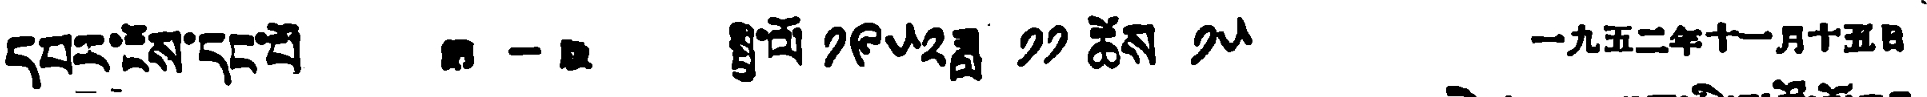དཔར་ངོས་དང་པོ་ 第一版 སྤྱི་ལོ ༡༩༥༢ ཟླ ༡༡ ཚེས ༡༥ 一九五二年十一月十五日
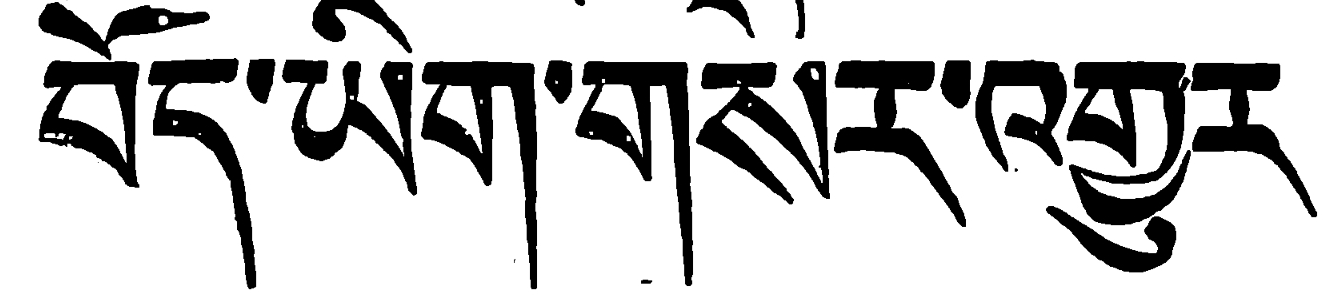བོད་ཡིག་གསར་འགྱུར
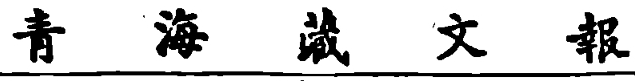靑 海 藏 文 報
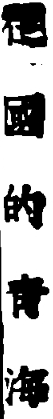祖 國 的 靑 海
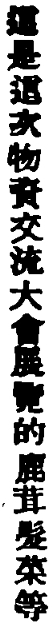這是這次物資交流大會展覽的鹿茸髮菜等
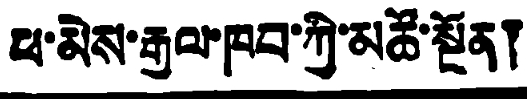ཕ་མེས་རྒྱལ་ཁབ་ཀྱི་མཚོ་སྔོན།
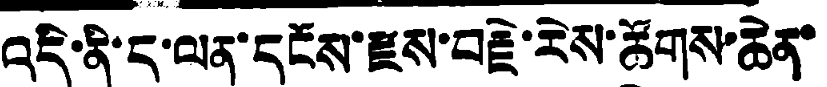འདི་ནི་ད་ལན་དངོས་རྫས་བརྗེ་རེས་ཚོགས་ཆེན་
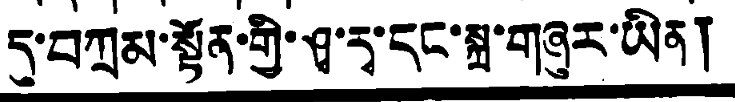དུ་བཀྲམ་སྟོན་གྱི་ཤྭ་རྭ་དང་སྐྲ་གཞུར་ཡིན།
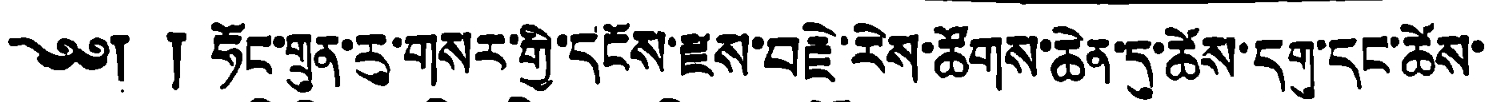༄༅། ། ཧོང་གྲུན་རུ་གསར་གྱི་དངོས་རྫས་བརྗེ་རེས་ཚོགས་ཆེན་དུ་ཚེས་དགུ་དང་ཚེས་
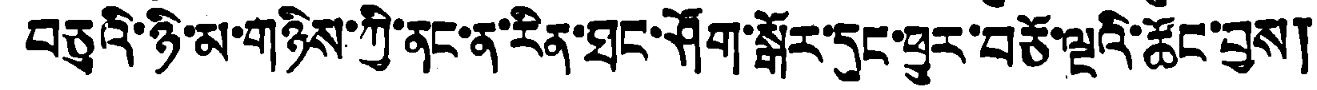བཅུའི་ཉི་མ་གཉིས་ཀྱི་ནང་ན་རིན་ཐང་ཤོག་སྒོར་དུང་ཕྱུར་བཅོ་ལྔའི་ཚོང་བྱས།
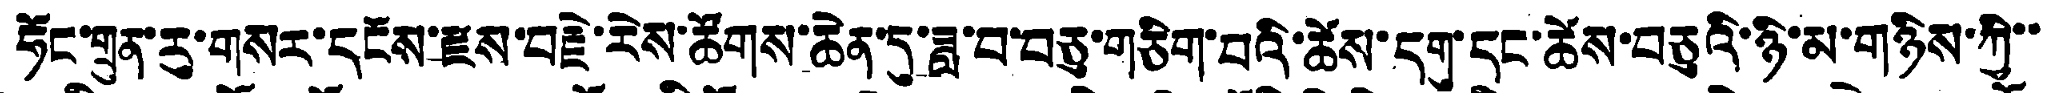ཧོང་གྲུན་རུ་གསར་དངོས་རྫས་བརྗེ་རེས་ཚོགས་ཆེན་དུ་ཟླ་བ་བཅུ་གཅིག་པའི་ཚེས་དགུ་དང་ཚེས་བཅུའི་ཉི་མ་གཉིས་ཀྱི་་
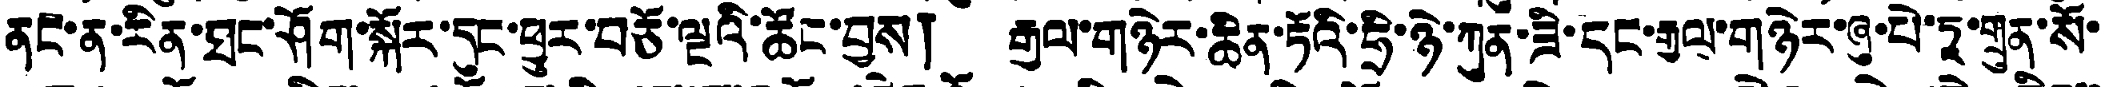ནང་ན་རིན་ཐང་ཤོག་སྐོར་དུང་ཕྱུར་བཅོ་ལྔའི་ཚོང་བྱས། རྒྱལ་གཉེར་ཆིན་ཏོའི་ཧྲི་ཉེ་ཀུན་ཟི་དང་རྒྱལ་གཉེར་ཞུ་པེ་ཏཱ་གྲུན་སོ་
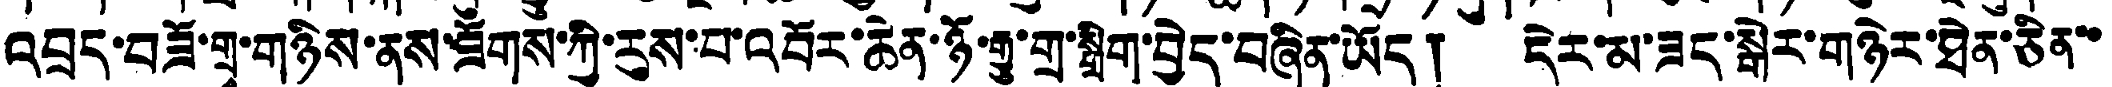འབྲད་བཟོ་གྲྭ་གཉིས་ནས་ཟོགས་ཀྱི་རུས་པ་འབོར་ཆེན་ཉོ་རྒྱུ་གྲ་སྒྲིག་བྱེད་བཞིན་ཡོད། དེར་མ་ཟད་སྒེར་གཉེར་ཐེན་ཅིན་་
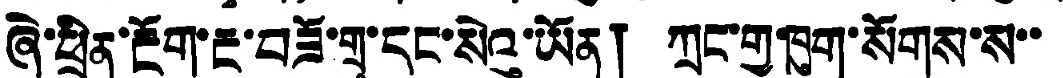ཞེ་ཕྲིན་རྔོག་རྔ་བཟོ་གྲྭ་དང་སེའུ་ཡོན། ཀྲང་གྱ་ཁུག་སོགས་ས་་
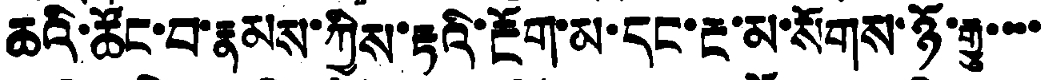ཆའི་ཚོང་བ་རྣམས་ཀྱིས་རྟའི་རྔོག་མ་དང་རྔ་མ་སོགས་ཉོ་རྒྱུ་་་་
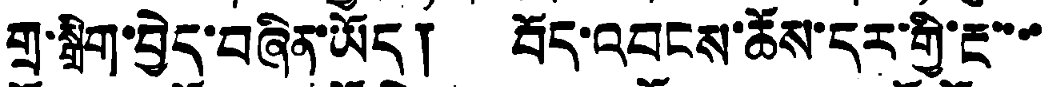གྲ་སྒྲིག་བྱེད་བཞིན་ཡོད། བོད་འབངས་ཆོས་དར་གྱི་རྔ་་་་
